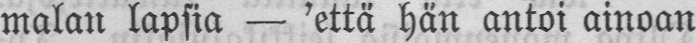malan lapsia — 'että hän antoi ainoan
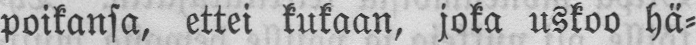poikansa, ettei kukaan, joka uskoo hä-
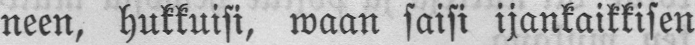neen, hukkuisi, waan saisi ijänkaikkisen
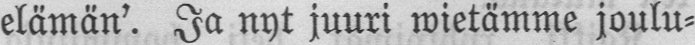elämän'. Ja nyt juuri wietämme joulu-
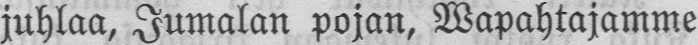juhlaa, Jumalan pojan, Wapahtajamme
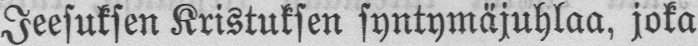Jeesuksen Kristuksen syntymäjuhlaa, joka
